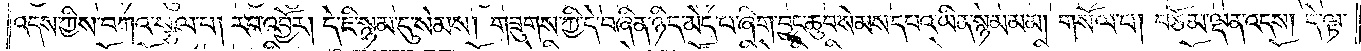འདས་ཀྱིས་བཀའ་སྩལ་པ། རབ་འབྱོར། དེ་ཇི་སྙམ་དུ་སེམས། གཟུགས་ཀྱི་དེ་བཞིན་ཉིད་མེད་པ་ཞིག་བྱང་ཆུབ་སེམས་དཔའ་ཡིན་སྙམ་མམ། གསོལ་པ། བཅོམ་ལྡན་འདས། དེ་ལྟ་
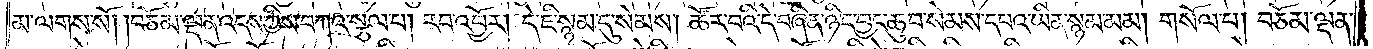མ་ལགས་སོ། །བཅོམ་ལྡན་འདས་ཀྱིས་བཀའ་སྩལ་པ། རབ་འབྱོར། དེ་ཇི་སྙམ་དུ་སེམས། ཚོར་བའི་དེ་བཞིན་ཉིད་བྱང་ཆུབ་སེམས་དཔའ་ཡིན་སྙམ་མམ། གསོལ་པ། བཅོམ་ལྡན་
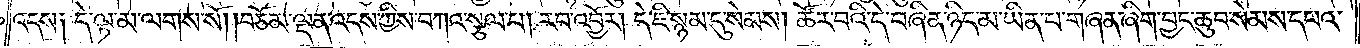འདས༑ དེ་ལྟ་མ་ལགས་སོ། །བཅོམ་ལྡན་འདས་ཀྱིས་བཀའ་སྩལ་པ། རབ་འབྱོར། དེ་ཇི་སྙམ་དུ་སེམས། ཚོར་བའི་དེ་བཞིན་ཉིད་མ་ཡིན་པ་གཞན་ཞིག་བྱང་ཆུབ་སེམས་དཔའ་
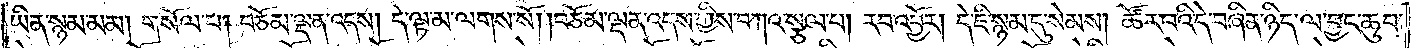ཡིན་སྙམ་མམ། གསོལ་པ། བཅོམ་ལྡན་འདས། དེ་ལྟ་མ་ལགས་སོ། །བཅོམ་ལྡན་འདས་ཀྱིས་བཀའ་སྩལ་པ། རབ་འབྱོར། དེ་ཇི་སྙམ་དུ་སེམས། ཚོར་བའི་དེ་བཞིན་ཉིད་ལ་བྱང་ཆུབ་
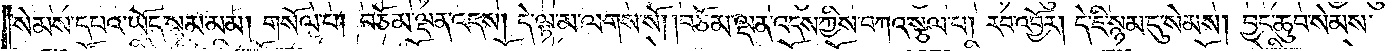སེམས་དཔའ་ཡོད་སྙམ་མམ། གསོལ་པ། བཅོམ་ལྡན་འདས། དེ་ལྟ་མ་ལགས་སོ། །བཅོམ་ལྡན་འདས་ཀྱིས་བཀའ་སྩལ་པ། རབ་འབྱོར། དེ་ཇི་སྙམ་དུ་སེམས། བྱང་ཆུབ་སེམས་
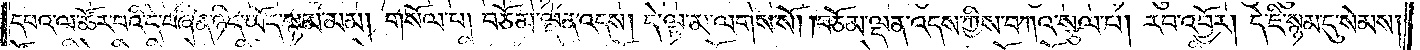དཔའ་ལ་ཚོར་བའི་དེ་བཞིན་ཉིད་ཡོད་སྙམ་མམ། གསོལ་པ། བཅོམ་ལྡན་འདས། དེ་ལྟ་མ་ལགས་སོ། །བཅོམ་ལྡན་འདས་ཀྱིས་བཀའ་སྩལ་པ། རབ་འབྱོར། དེ་ཇི་སྙམ་དུ་སེམས།
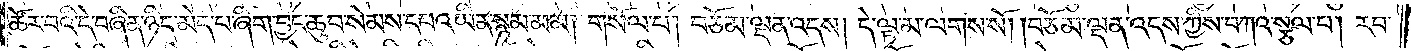ཚོར་བའི་དེ་བཞིན་ཉིད་མེད་པ་ཞིག་བྱང་ཆུབ་སེམས་དཔའ་ཡིན་སྙམ་མམ། གསོལ་པ། བཅོམ་ལྡན་འདས། དེ་ལྟ་མ་ལགས་སོ། །བཅོམ་ལྡན་འདས་ཀྱིས་བཀའ་སྩལ་པ། རབ་
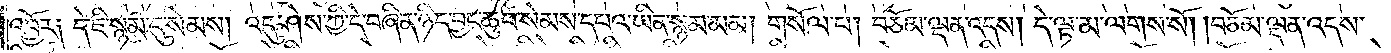འབྱོར༑ དེ་ཇི་སྙམ་དུ་སེམས། འདུ་ཤེས་ཀྱི་དེ་བཞིན་ཉིད་བྱང་ཆུབ་སེམས་དཔའ་ཡིན་སྙམ་མམ། གསོལ་པ། བཅོམ་ལྡན་འདས། དེ་ལྟ་མ་ལགས་སོ། །བཅོམ་ལྡན་འདས་
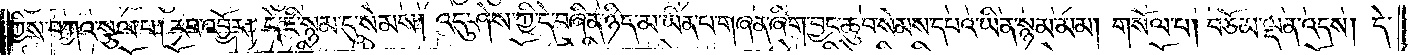ཀྱིས་བཀའ་སྩལ་པ། རབ་འབྱོར། དེ་ཇི་སྙམ་དུ་སེམས། འདུ་ཤེས་ཀྱི་དེ་བཞིན་ཉིད་མ་ཡིན་པ་གཞན་ཞིག་བྱང་ཆུབ་སེམས་དཔའ་ཡིན་སྙམ་མམ། གསོལ་པ། བཅོམ་ལྡན་འདས། དེ་
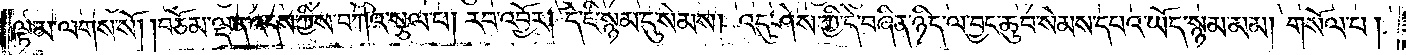ལྟ་མ་ལགས་སོ། །བཅོམ་ལྡན་འདས་ཀྱིས་བཀའ་སྩལ་པ། རབ་འབྱོར། དེ་ཇི་སྙམ་དུ་སེམས། འདུ་ཤེས་ཀྱི་དེ་བཞིན་ཉིད་ལ་བྱང་ཆུབ་སེམས་དཔའ་ཡོད་སྙམ་མམ། གསོལ་པ།
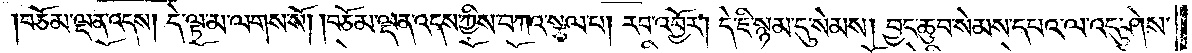བཅོམ་ལྡན་འདས། དེ་ལྟ་མ་ལགས་སོ། །བཅོམ་ལྡན་འདས་ཀྱིས་བཀའ་སྩལ་པ། རབ་འབྱོར། དེ་ཇི་སྙམ་དུ་སེམས། བྱང་ཆུབ་སེམས་དཔའ་ལ་འདུ་ཤེས་
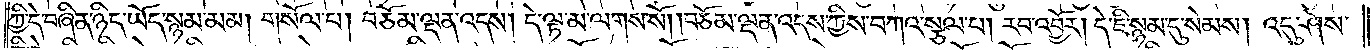ཀྱི་དེ་བཞིན་ཉིད་ཡོད་སྙམ་མམ། གསོལ་པ། བཅོམ་ལྡན་འདས། དེ་ལྟ་མ་ལགས་སོ། །བཅོམ་ལྡན་འདས་ཀྱིས་བཀའ་སྩལ་པ། རབ་འབྱོར། དེ་ཇི་སྙམ་དུ་སེམས། འདུ་ཤེས་
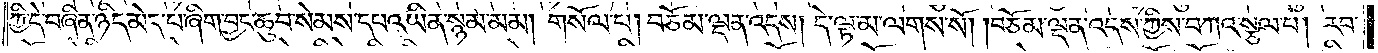ཀྱི་དེ་བཞིན་ཉིད་མེད་པ་ཞིག་བྱང་ཆུབ་སེམས་དཔའ་ཡིན་སྙམ་མམ། གསོལ་པ། བཅོམ་ལྡན་འདས། དེ་ལྟ་མ་ལགས་སོ། །བཅོམ་ལྡན་འདས་ཀྱིས་བཀའ་སྩལ་པ། རབ་
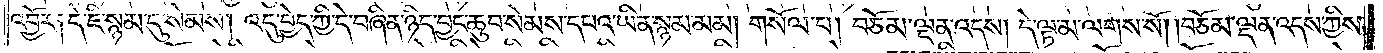འབྱོར༑ དེ་ཇི་སྙམ་དུ་སེམས། འདུ་བྱེད་ཀྱི་དེ་བཞིན་ཉིད་བྱང་ཆུབ་སེམས་དཔའ་ཡིན་སྙམ་མམ། གསོལ་པ། བཅོམ་ལྡན་འདས། དེ་ལྟ་མ་ལགས་སོ། །བཅོམ་ལྡན་འདས་ཀྱིས་
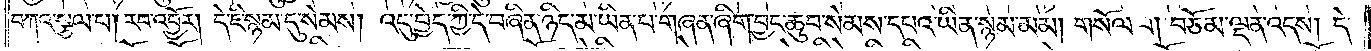བཀའ་སྩལ་པ། རབ་འབྱོར། དེ་ཇི་སྙམ་དུ་སེམས། འདུ་བྱེད་ཀྱི་དེ་བཞིན་ཉིད་མ་ཡིན་པ་གཞན་ཞིག་བྱང་ཆུབ་སེམས་དཔའ་ཡིན་སྙམ་མམ། གསོལ་པ། བཅོམ་ལྡན་འདས། དེ་
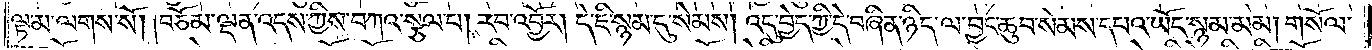ལྟ་མ་ལགས་སོ། །བཅོམ་ལྡན་འདས་ཀྱིས་བཀའ་སྩལ་པ། རབ་འབྱོར། དེ་ཇི་སྙམ་དུ་སེམས། འདུ་བྱེད་ཀྱི་དེ་བཞིན་ཉིད་ལ་བྱང་ཆུབ་སེམས་དཔའ་ཡོད་སྙམ་མམ། གསོལ་
